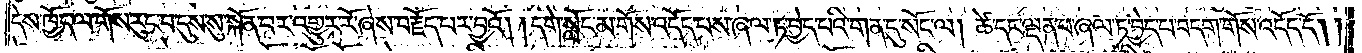དེས་ཁྱོད་ལ་གོས་རུང་བ་དུས་སུ་སྐོན་པར་འགྱུར་རོ་ཞེས་བརྗོད་པར་བྱའོ། །དགེ་སློང་མ་གོས་འདོད་པས་ཞལ་ཏ་བྱེད་པའི་གན་དུ་སོང་ལ། ཚེ་དང་ལྡན་པ་ཞལ་ཏ་བྱེད་པ་བདག་གོས་འདོད་དོ། །
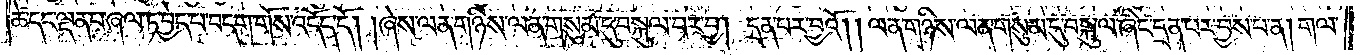ཚེ་དང་ལྡན་པ་ཞལ་ཏ་བྱེད་པ་བདག་གོས་འདོད་དོ། །ཞེས་ལན་གཉིས་ལན་གསུམ་དུ་བསྐུལ་བར་བྱ། དྲན་པར་བྱའོ། །ལན་གཉིས་ལན་གསུམ་དུ་བསྐུལ་ཞིང་དྲན་པར་བྱས་པ་ན། གལ་
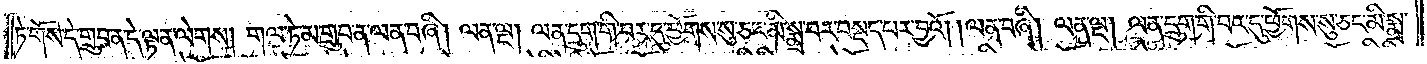ཏེ་གོས་དེ་གྲུབ་ན་དེ་ལྟ་ན་ལེགས། གལ་ཏེ་མ་གྲུབ་ན་ལན་བཞི། །ལན་ལྔ། ལན་དྲུག་གི་བར་དུ་ཕྱོགས་སུ་ཅང་མི་སྨྲ་བར་བསྡད་པར་བྱའོ། །ལན་བཞི། ལན་ལྔ། ལན་དྲུག་གི་བར་དུ་ཕྱོགས་སུ་ཅང་མི་སྨྲ་
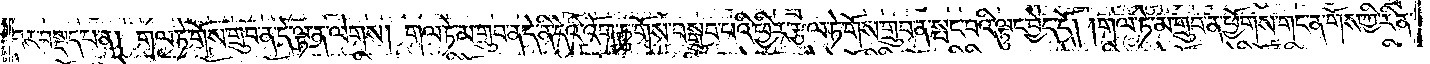བར་བསྡད་པ་ན། གལ་ཏེ་གོས་གྲུབ་ན་དེ་ལྟ་ན་ལེགས། གལ་ཏེ་མ་གྲུབ་ན་དེ་ནི་དེའི་འོག་ཏུ་གོས་བསྒྲུབ་པའི་ཕྱིར་རྩལ་ཏེ་གོས་གྲུབ་ན་སྤང་བའི་ལྟུང་བྱེད་དོ། །གལ་ཏེ་མ་གྲུབ་ན་ཕྱོགས་གང་ན་གོས་ཀྱི་རིན་
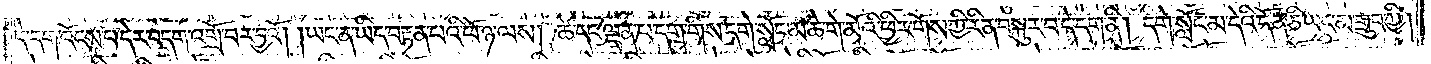དེ་དག་འོངས་པ་དེར་བདག་འགྲོ་བར་བྱའོ། །ཡང་ན་ཡིད་བརྟན་པའི་ཕོ་ཉ་ལས། ཚེ་དང་ལྡན་པ་དག་གིས་དགེ་སློང་མ་ཆེ་གེ་མོའི་ཕྱིར་གོས་ཀྱི་རིན་བསྐུར་བ་དེ་དག་ནི། དགེ་སློང་མ་དེའི་དོན་ཅི་ཡང་མ་གྲུབ་ཀྱི།
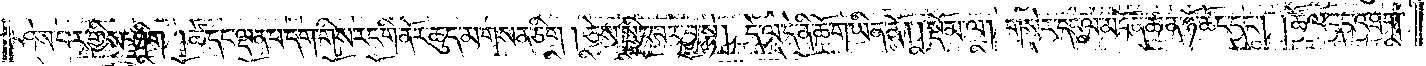ཤེས་པར་གྱིས་ཤིག །ཚེ་དང་ལྡན་པ་དག་གིས་རང་གི་ནོར་ཆུད་མ་གསན་ཅིག །ཅེས་སྤྲིང་བར་བྱ་སྟེ། དེ་ལ་དེ་ནི་ཆོ་ག་ཡིན་ནོ། །སྡོམ་ལ། གསེར་དངུལ་མངོན་ཚན་ཉོ་ཚོང་དང༌། །ཚོལ་དང་འཐག་
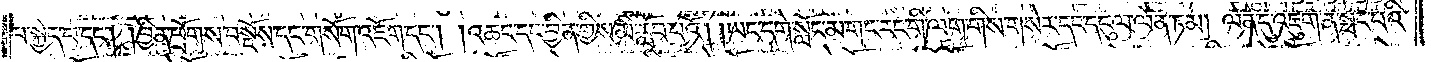པ་སྐྱེད་པ་དང༌། །བྱིན་ཕྲོགས་བསྔོས་དང་གསོག་འཇོག་དང༌། །འཆང་དང་བྱིན་གྱིས་མི་རློབ་པའོ། །ཡང་དགེ་སློང་མ་གང་རང་གི་ལག་གིས་གསེར་དང་དངུལ་ལེན་ཏམ། ལེན་དུ་འཇུག་ན་སྤང་བའི་
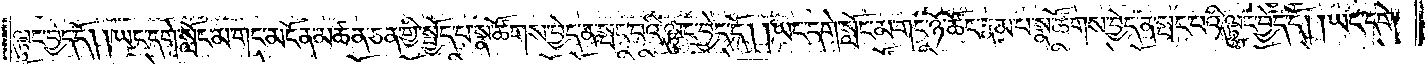ལྟུང་བྱེད་དོ། །ཡང་དགེ་སློང་མ་གང་མངོན་མཚན་ཅན་གྱི་སྤྱོད་པ་སྣ་ཚོགས་བྱེད་ན་སྤང་བའི་ལྟུང་བྱེད་དོ། །ཡང་དགེ་སློང་མ་གང་ཉོ་ཚོང་རྣམ་པ་སྣ་ཚོགས་བྱེད་ན་སྤང་བའི་ལྟུང་བྱེད་དོ། །ཡང་དགེ་
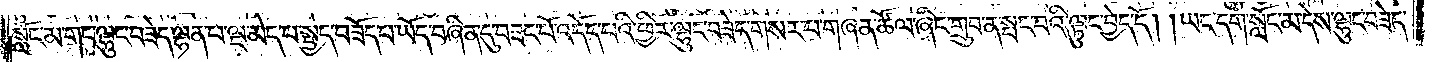སློང་མ་གང་ལྷུང་བཟེད་ལྷན་པ་ལྔ་མེད་པ་སྤྱད་བཟོད་པ་ཡོད་བཞིན་དུ་བཟང་པོ་འདོད་པའི་ཕྱིར་ལྷུང་བཟེད་གསར་པ་གཞན་ཚོལ་ཞིང་གྲུབ་ན་སྤང་བའི་ལྟུང་བྱེད་དོ། །ཡང་དགེ་སློང་མ་དེས་ལྷུང་བཟེད་
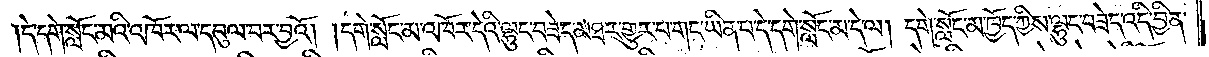དེ་དགེ་སློང་མའི་འཁོར་ལ་དབུལ་བར་བྱའོ། །དགེ་སློང་མ་འཁོར་དེའི་ལྷུང་བཟེད་མཐར་གྱུར་པ་གང་ཡིན་པ་དེ་དགེ་སློང་མ་དེ་ལ། དགེ་སློང་མ་ཁྱོད་ཀྱིས་ལྷུང་བཟེད་འདི་བྱིན་
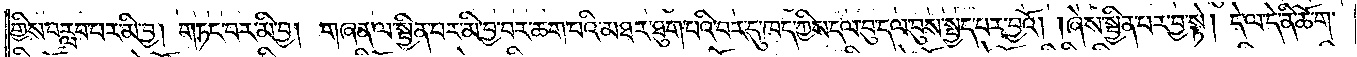གྱིས་བརླབ་པར་མི་བྱ། །གཏང་བར་མི་བྱ། གཞན་ལ་སྦྱིན་པར་མི་བྱ་བར་ཆག་པའི་མཐར་ཐུག་པའི་བར་དུ་ཁད་ཀྱིས་དལ་བུ་དལ་བུས་སྤྱད་པར་བྱའོ། །ཞེས་སྦྱིན་པར་བྱ་སྟེ། དེ་ལ་དེ་ནི་ཆོ་ག་
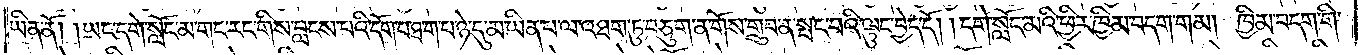ཡིན་ནོ། །ཡང་དགེ་སློང་མ་གང་རང་གིས་བླངས་པའི་དོག་པ་ཐ་ག་པ་ཉེ་དུ་མ་ཡིན་པ་ལ་འཐག་ཏུ་བཅུག་ན་གོས་གྲུབ་ན་སྤང་བའི་ལྷུང་བྱེད་དོ། །དགེ་སློང་མའི་ཕྱིར་ཁྱིམ་བདག་གམ། ཁྱིམ་བདག་གི་
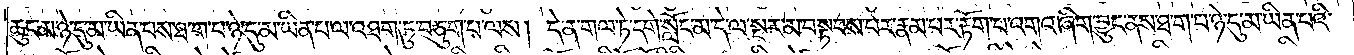ཆུང་མ་ཉེ་དུ་མ་ཡིན་པས་ཐ་ག་པ་ཉེ་དུ་མ་ཡིན་པ་ལ་འཐག་ཏུ་བཅུག་པ་ལས། དེ་ན་གལ་ཏེ་དགེ་སློང་མ་དེ་ལ་སྔར་མ་བསྟབས་པར་རྣམ་པར་རྟོག་པ་འགའ་ཞིག་བྱུང་ནས་ཐ་ག་པ་ཉེ་དུ་མ་ཡིན་པའི་
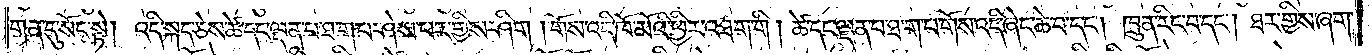གན་དུ་སོང་སྟེ། འདི་སྐད་ཅེས་ཚེ་དང་ལྡན་པ་ཐ་ག་པ་ཤེས་པར་གྱིས་ཤིག །གོས་འདི་ཁོ་མོའི་ཕྱིར་འཐག་གི། ཚེ་དང་ལྡན་པ་ཐ་ག་པ་གོས་འདི་ཞེས་ཆེ་བ་དང༌། ཁྲུན་རིང་པ་དང༌། ཐར་གྱིས་ཞག་
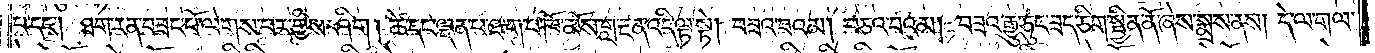པ་དང༌། ཐག་རན་བཟང་པོ་ལེགས་པར་གྱིས་ཤིག །ཚེ་དང་ལྡན་པ་ཐ་ག་པ་ཁོ་མོས་གླ་རྔན་འདི་ལྟ་སྟེ། བཟའ་བའམ། བཅའ་བའམ། བཟའ་རྒྱུ་ཅུང་ཟད་ཅིག་སྦྱིན་ནོ་ཞེས་སྨྲས་ནས། དེ་ལ་གལ་
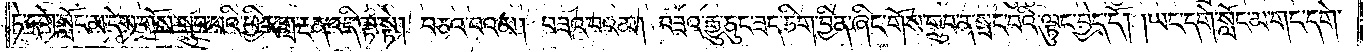ཏེ་དགེ་སློང་མ་དེས་གོས་སྒྲུབ་པའི་ཕྱིར་གླ་རྔན་འདི་ལྟ་སྟེ། བཅའ་བའམ། བཟའ་བའམ། བཟའ་རྒྱུ་ཅུང་ཟད་ཅིག་བྱིན་ཞིང་གོས་གྲུབ་ན་སྤང་བའི་ལྟུང་བྱེད་དོ། །ཡང་དགེ་སློང་མ་གང་དགེ་
